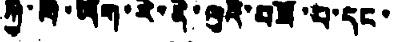ཀྱི་ལི་ཡོག་རེ་ནེ་ལུའི་བཟོ་པ་དང་
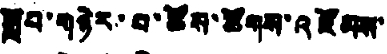སློབ་གཉེར་པ་ཚོས་ཚོགས་འཛོམས་
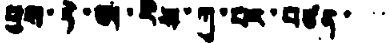བྱས་ཏེ་ཨ་རིས་ཀུ་པར་བཙན་་་་
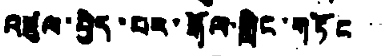འཛུལ་བྱེད་པར་རྒོལ་གླེང་གཏོང་་་
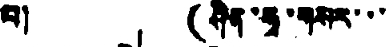བ། (ཤིན་ཧྭ་གསར་་་
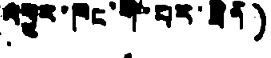འགྱུར་ཁང་གི་པར་ཟིན)
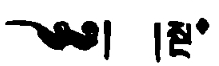༄༅། །སྔ་
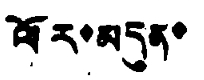ལོར་མདུན་
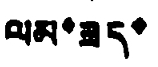ལམ་ཟད་
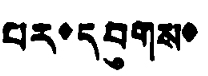པར་དབུགས་
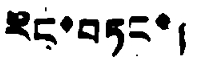རིང་བཏང་།
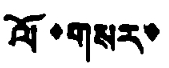ལོ་གསར་
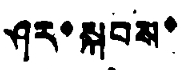ཤར་སྐབས་
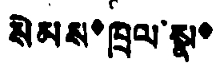སེམས་ཁྲལ་སྣ་
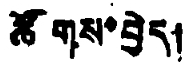ཚོགས་བྱེད།
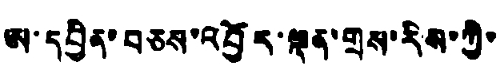ཨ་དབྱིན་བཅས་འབྱོར་ལྡན་གྲས་རིས་ཀྱི་
